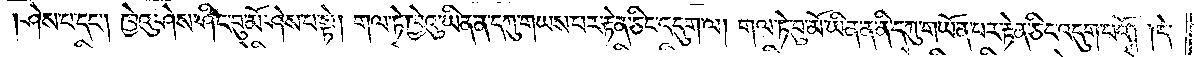ཤེས་པ་དང༌། ཁྱེའུ་ཤེས་ཤིང་བུ་མོ་ཤེས་པ་སྟེ། གལ་ཏེ་ཁྱེའུ་ཡིན་ན་དཀུ་གཡས་པར་རྟེན་ཅིང་འདུག་ལ། གལ་ཏེ་བུ་མོ་ཡིན་ན་ནི་དཀུ་གཡོན་པར་རྟེན་ཅིང་འདུག་པའོ། །དེ་
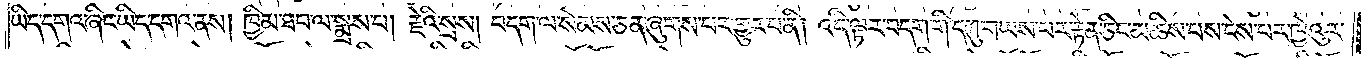ཡིད་དགའ་ཞིང་ཡིད་དགའ་ནས། ཁྱིམ་ཐབ་ལ་སྨྲས་པ། རྗེའི་སྲས། བདག་ལ་སེམས་ཅན་ཞུགས་པར་གྱུར་པ་ནི། འདི་ལྟར་བདག་གི་དཀུ་གཡས་པར་རྟེན་ཅིང་མཆིས་པས་ངེས་པར་ཁྱེའུར་
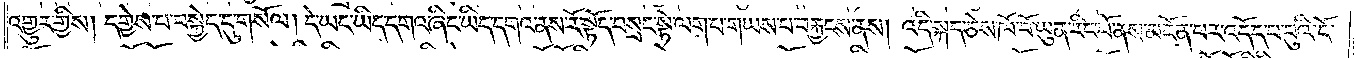འགྱུར་གྱིས། དགྱེས་པ་བསྐྱེད་དུ་གསོལ། དེ་ཡང་ཡིད་དགའ་ཞིང་ཡིད་དགའ་ནས་རོ་སྟོད་བསྲང་སྟེ་ལག་པ་གཡས་པ་བརྐྱངས་ནས། འདི་སྐད་ཅེས་ཁོ་བོ་ཡུན་རིང་པོ་ནས་མངོན་པར་འདོད་པ་བུའི་ངོ་
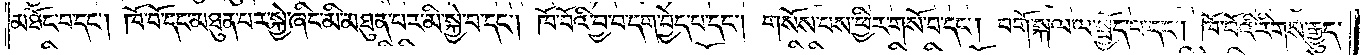མཐོང་བ་དང༌། ཁོ་བོ་དང་མཐུན་པར་སྐྱེ་ཞིང་མི་མཐུན་པར་མི་སྐྱེ་བ་དང༌། ཁོ་བོའི་བྱ་བ་དག་བྱེད་པ་དང༌། གསོས་པས་ཕྱིར་གསོ་བ་དང༌། བགོ་སྐལ་ལ་སྤྱོད་པ་དང༌། ཁོ་བོའི་རིགས་རྒྱུད་
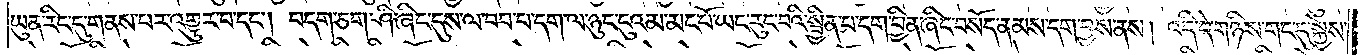ཡུན་རིང་དུ་གནས་པར་འགྱུར་བ་དང༌། བདག་ཅག་ཤི་ཞིང་དུས་ལ་བབ་པ་དག་ལ་ཉུང་ངུའམ་མང་པོ་ཡང་རུང་བའི་སྦྱིན་པ་དག་བྱིན་ཞིང་བསོད་ནམས་དག་བྱས་ནས། འདི་དེ་གཉིས་གང་དུ་སྐྱེས་
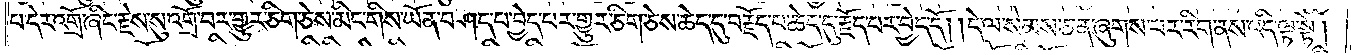པ་དེར་འགྲོ་ཞིང་རྗེས་སུ་འགྲོ་བར་གྱུར་ཅིག་ཅེས་མིང་གིས་ཡོན་བཤད་པ་བྱེད་པར་གྱུར་ཅིག་ཅེས་ཆེད་དུ་བརྗོད་པ་ཆེད་དུ་རྗོད་པར་བྱེད་དོ། །དེ་ལ་སེམས་ཅན་ཞུགས་པར་རིག་ནས་འདི་ལྟ་སྟེ།
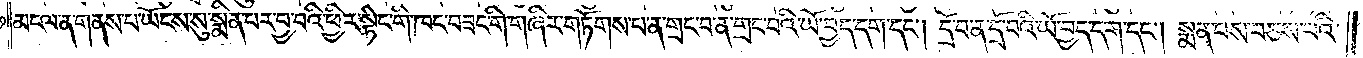མངལ་ན་གནས་པ་ཡོངས་སུ་སྨིན་པར་བྱ་བའི་ཕྱིར་སྟེང་གི་ཁང་བཟང་གི་གཞིར་གཏོགས་པ་ན་གྲང་བ་ན་གྲང་བའི་ཡོ་བྱད་དག་དང༌། དྲོ་བ་ན་དྲོ་བའི་ཡོ་བྱད་དག་དང༌། སྨན་པས་བཅས་པའི་
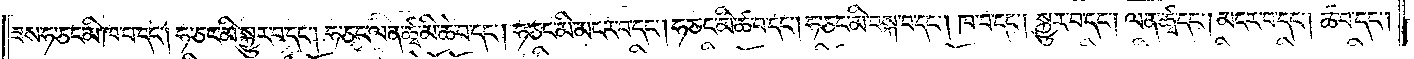ཟས་ཧ་ཅང་མི་ཁ་བ་དང༌། ཧ་ཅང་མི་སྐྱུར་བ་དང༌། ཧ་ཅང་ལན་ཚྭ་མི་ཆེ་བ་དང༌། ཧ་ཅང་མི་མངར་བ་དང༌། ཧ་ཅང་མི་ཚ་བ་དང༌། ཧ་ཅང་མི་བསྐ་བ་དང༌། ཁ་བ་དང༌། སྐྱུར་བ་དང༌། ལན་ཚྭ་དང༌། མངར་བ་དང༌། ཚ་བ་དང༌།
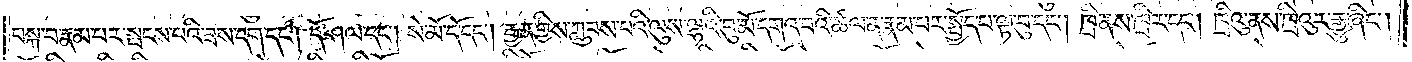བསྐ་བ་རྣམ་པར་སྤངས་པའི་ཟས་དག་དང༌། དོ་ཤལ་དང༌། སེ་མོ་དོ་དང༌། རྒྱན་གྱིས་ཀླུབས་པའི་ལུས་ལྷའི་བུ་མོ་དགའ་བའི་ཚལ་ན་རྣམ་པར་སྤྱོད་པ་ལྟ་བུ་དང༌། ཁྲི་ནས་ཁྲིར་དང༌། ཁྲིའུ་ནས་ཁྲིའུར་རྒྱུ་ཞིང༌།
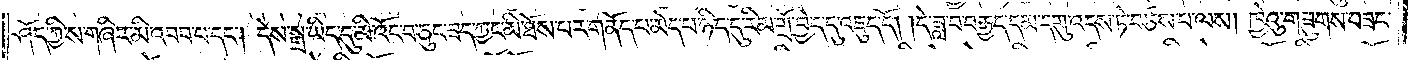ཤོད་ཀྱི་ས་གཞིར་མི་འབབ་པ་དང༌། དེས་སྒྲ་ཡིད་དུ་མི་འོང་བ་ཅུང་ཟད་ཀྱང་མི་ཐོས་པར་གནོད་པ་མེད་པ་ཉིད་དུ་རིམ་གྲོ་བྱེད་དུ་འཇུད་དོ། །དེ་ཟླ་བ་བརྒྱད་དམ་དགུ་འདས་ཏེ་བཙས་པ་ལས། ཁྱེའུ་གཟུགས་བཟང་
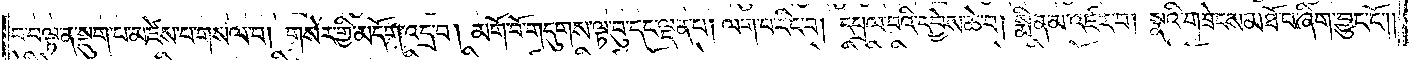བ་བལྟ་ན་སྡུག་པ་མཛེས་པ་གསལ་བ། གསེར་གྱི་མདོག་འདྲ་བ། མགོ་བོ་གདུགས་ལྟ་བུ་དང་ལྡན་པ། ལག་པ་རིང་བ། དཔྲལ་བའི་དབྱེས་ཆེ་བ། སྨིན་མ་འཛར་བ། སྣའི་གཟེངས་མཐོ་བ་ཞིག་བྱུང་ངོ༌༎
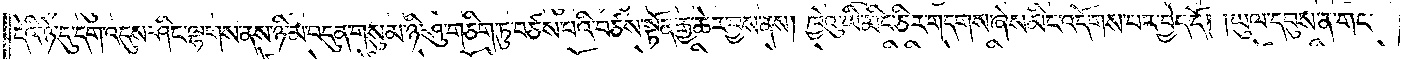དེའི་ཉེ་དུ་དག་འདུས་ཤིང་ལྷགས་ནས་ཉི་མ་བདུན་གསུམ་ཉི་ཤུ་གཅིག་ཏུ་བཙས་པའི་བཙས་སྟོན་རྒྱ་ཆེར་བྱས་ནས། ཁྱེའུ་ཡི་མིང་ཅིར་གདགས་ཞེས་མིང་འདོགས་པར་བྱེད་དོ། །ཡུལ་དབུས་ན་གང་
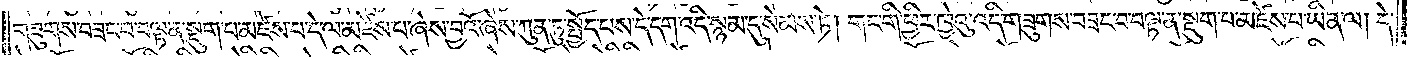གཟུགས་བཟང་བ་བལྟ་ན་སྡུག་པ་མཛེས་པ་དེ་ལ་མཛེས་པ་ཞེས་བྱའོ་ཞེས་ཀུན་ཏུ་སྤྱོད་པས་དེ་དག་འདི་སྙམ་དུ་སེམས་ཏེ། གང་གི་ཕྱིར་ཁྱེའུ་འདི་གཟུགས་བཟང་བ་བལྟ་ན་སྡུག་པ་མཛེས་པ་ཡིན་ལ། དེ་
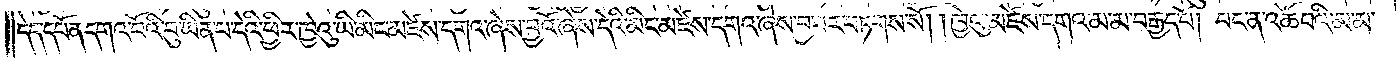དེད་དཔོན་དགའ་བོའི་བུ་ཡིན་པ་དེའི་ཕྱིར་ཁྱེའུ་ཡི་མིང་མཛེས་དགའ་ཞེས་བྱའོ་ཞེས་དེའི་མིང་མཛེས་དགའ་ཞེས་བྱ་བར་བཏགས་སོ། །ཁྱེའུ་མཛེས་དགའ་མ་མ་བརྒྱད་པོ། པང་ན་འཚོ་བའི་མ་མ་
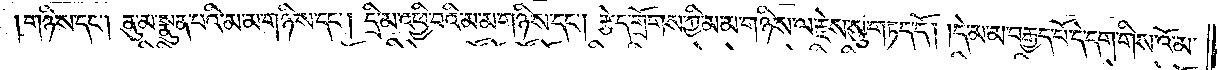།གཉིས་དང༌། ནུ་མ་སྣུན་པའི་མ་མ་གཉིས་དང༌། དྲི་མ་འཕྱི་བའི་མ་མ་གཉིས་དང༌། རྩེད་གྲོགས་ཀྱི་མ་མ་གཉིས་ལ་རྗེས་སུ་གཏད་དོ། །དེ་མ་མ་བརྒྱད་པོ་དེ་དག་གིས་འོ་མ་
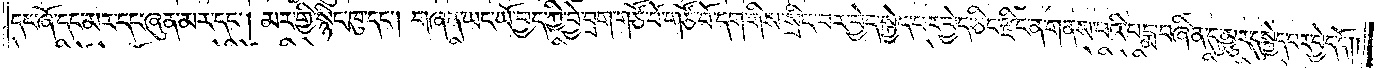དང་ཞོ་དང་མར་དང་ཞུན་མར་དང༌། མར་གྱི་སྙིང་ཁུ་དང༌། གཞན་ཡང་ཡོ་བྱད་ཀྱི་བྱེ་བྲག་གཙོ་བོ་གཙོ་བོ་དག་གིས་སྲིང་བར་བྱེད་སྐྱེད་པར་བྱེད་ཅིང་རྫིང་ན་གནས་པའི་པདྨ་བཞིན་དུ་མྱུར་དུ་སྐྱེ་པར་བྱེད་དོ།
